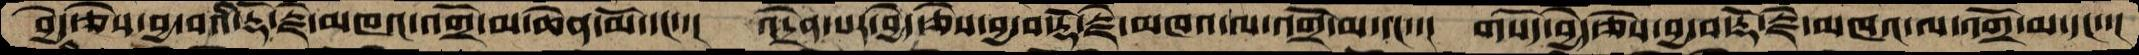བྱེད་ཅེས་བྱ་བའི་རྡོ་རྗེ་མཁའ་འགྲོ་མ་ཆེན་མོ་དང་་།  འདྲེན་པར་བྱེད་ཅེས་བྱ་བ་རྡོ་རྗེ་མཁའ་ལ་འགྲོ་མ་དང་་།  གསོད་བྱེད་ཅེས་བྱ་བ་རྡོ་རྗེ་མཁའ་ལ་འགྲོ་མ་དང་་།
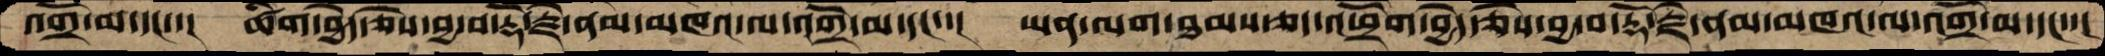འགྲོ་མ་དང་་།  ཚིག་བྱེད་ཅེས་བྱ་བ་རྡོ་རྗེ་ནམ་མཁའ་ལ་འགྲོ་མ་དང་་།  ཡན་ལག་ཐམས་ཅད་འཕྲོག་བྱེད་ཅེས་བྱ་བ་རྡོ་རྗེ་ནམ་མཁའ་ལ་འགྲོ་མ་དང་་།
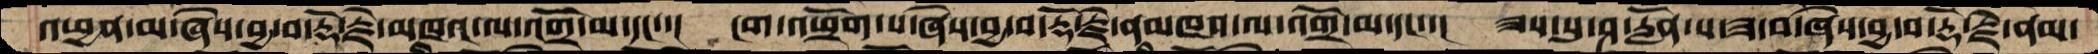འཕྱན་མ་ཞེས་བྱ་བ་རྡོ་རྗེ་མཁའ་ལ་འགྲོ་མ་དང་་།  ངག་འཕྲོག་པ་ཞེས་བྱ་བ་རྡོ་རྗེ་ནམཁའ་ལ་འགྲོ་མ་དང་་།  ཟས་སུ་ཤ་རློན་པ་ཟ་བ་ཞེས་བྱ་བ་རྡོ་རྗེ་ནམ་
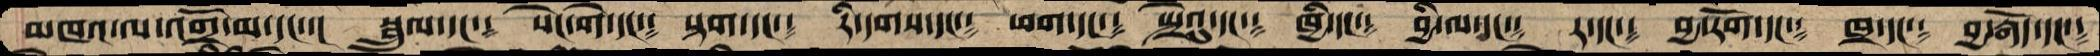མཁའ་ལ་འགྲོ་མ་སང་་།  སྦྲུལ་དང་༴  སེང་གེ་དང་༴  སྟག་དང་༴  རི་དགས་དང་༴  ཕག་དང་༴  སྤྲེའུ་དང་༴  ཁྱི་དང་༴  བྱི་ལ་དང་༴  ར་དང་༴  བྱ་རོག་དང་༴  ཁྲ་དང་༴ བྱ་རྒོད་དང་༴
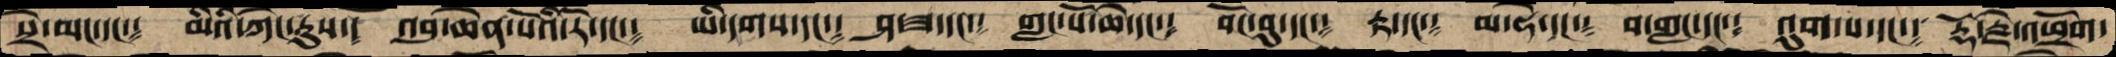སྲེ་མང་དང་༴  མིའི་ཀེང་རུས་།   འབུ་ཆེན་པོའི་རོ་དང་༴  ཡི་དགས་དང་༴  ཤ་ཟ་དང་༴  གླང་པོ་ཆེ་དང་༴  བོང་བུ་དང་༴  རྟ་དང་༴  མ་ཧེ་དང་༴  བ་གླང་དང་༴ འུག་པ་དང་༴  རྡོ་རྗེ་འཕྲོག་
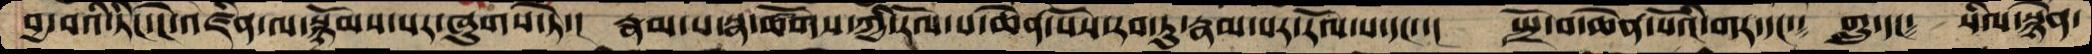བྱ་བའི་ཏིང་ངེ་འཛིན་ལ་སྙོམས་པར་ཞུགས་ཏེ་།  རྣམ་པ་སྣ་ཚོགས་ཀྱི་རོལ་པ་ཆེན་པོས་རབ་ཏུ་རྣམ་པར་རོལ་པ་དང་་།  སྤྲོ་བ་ཆེན་པོའི་གར་དང་༴ གླུ་དང་༴  སིལ་སྙེན་
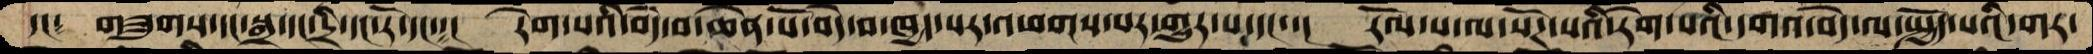དང༴  གཟུགས་དང་སྒྲ་དང་དྲི་དང་རོ་དང་༴།  རེག་པའི་བདེ་བ་ཆེན་པོ་བདེ་བ་ཁྱད་པར་འཕགས་པར་གྱུར་པ་དང་་།  རོལ་པ་ལ་སོཌ་པའི་རེག་པའི་དགའ་བདེ་ལ་སྤྱོད་པའི་གར་
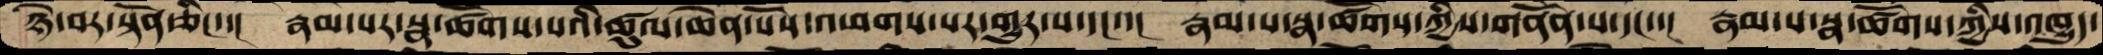ཉེ་བར་སྟོན་ཅིང་་།  རྣམ་པར་སྣ་ཚོགས་པའི་ཚུལ་ཆེན་པོས་འཕགས་པར་གྱུར་པ་དང་་།  རྣམ་པ་སྣ་ཚོགས་ཀྱིས་གནོན་པ་དང་་།  རྣམ་པ་སྣ་ཚོགས་ཀྱིས་འཁྱུད་
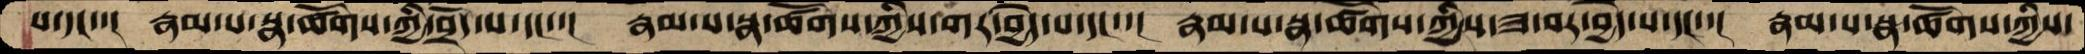པ་དང་་།  རྣམ་པ་སྣ་ཚོགས་ཀྱི་བྲོད་པ་དང་་།  རྣམ་པ་སྣ་ཚོགས་ཀྱིས་གར་བྱེད་པ་དང་་།  རྣམ་པ་སྣ་ཚོགས་ཀྱིས་ཟ་བར་བྱེད་པ་དང་་།  རྣམ་པ་སྣ་ཚོགས་ཀྱིས་
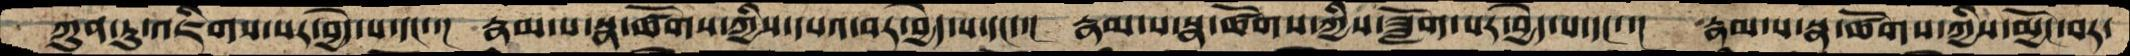ཀུན་ཏུ་འཇིགས་པར་བྱེད་པ་དང་་།  རྣམ་པ་སྣ་ཚོགས་ཀྱིས་དཔའ་བར་བྱེད་པ་དང་་།  རྣམ་པ་སྣ་ཚོགས་ཀྱིས་ཟློག་པར་བྱེད་པ་དང་་།  རྣམ་པ་སྣ་ཚོགས་ཀྱིས་མྱོང་བར་
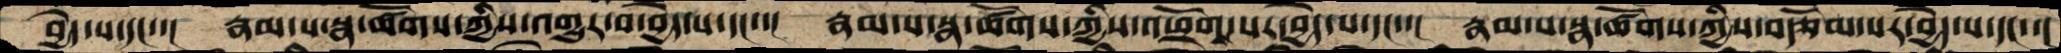བྱེེད་པ་དང་་།  རྣམ་པ་སྣ་ཚོགས་ཀྱིས་འགྱུར་བ་བྱེད་པ་དང་་།  རྣམ་པ་སྣ་ཚོགས་ཀྱིས་འཕྲོག་པར་བྱེད་པ་དང་་།  རྣམ་པ་སྣ་ཚོགས་ཀྱིས་བརྩོམ་པར་བྱེད་པ་དང་་།
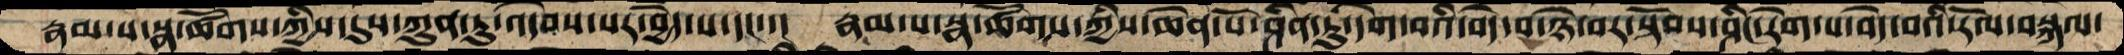རྣམ་པ་སྣ་ཚོགས་ཀྱིས་དུས་ཀུན་ཏུ་འདེབས་པར་བྱེད་པ་དང་་།  རྣམ་པ་སྣ་ཚོགས་ཀྱིས་ཆེན་པོ་ཤིན་ཏུ་དགེ་བའི་བདེ་བ་ཉེ་བར་སྟོབས་ཤིང་རེག་པ་བདེ་བའི་རོལ་བསྐལ་
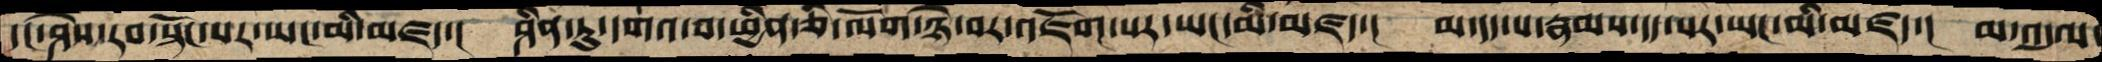དང་ཤེས་རབ་སྟོང་པར་ཡང་མི་མཛད་།  ཤིན་ཏུ་དགའ་བ་ཕྱིན་ཅི་ལོག་ཉེ་བར་འཇོག་པར་ཡང་མི་མཛད་།  མ་དད་པ་རྣམས་དད་པར་ཡང་མི་མཛད་།  མ་འདུལ
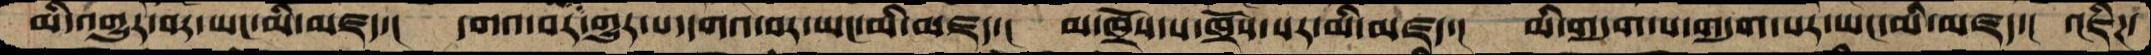མི་འགྱུར་བར་ཡང་མི་མཛད་།  དགའ་བར་གྱུར་པ་དགའ་བར་ཡང་མི་མཛད་།  མ་ཁྲོས་པ་ཁྲོས་པར་མི་མཛད་།  མི་གདུག་པ་གདུག་པར་ཡང་མི་མཛད་།  འཇིཌ་
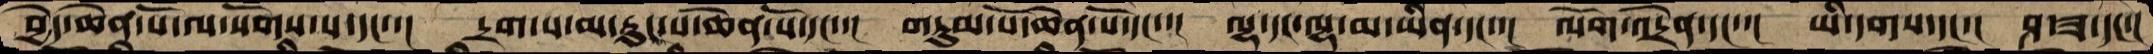བྱེད་ཆེན་པོ་ལ་སོགས་པ་དང་་།  དྲག་པ་མ་རུང་པ་ཆེན་པོ་དང་།  གཏུམ་པོ་ཆེན་པོ་དང་་།  ལྷ་དང་ལྷ་མ་ཡིན་དང་་།  ལོག་འདྲེན་དང་་།  ཡི་དགས་དང་་།  ཤ་ཟ་དང་་།
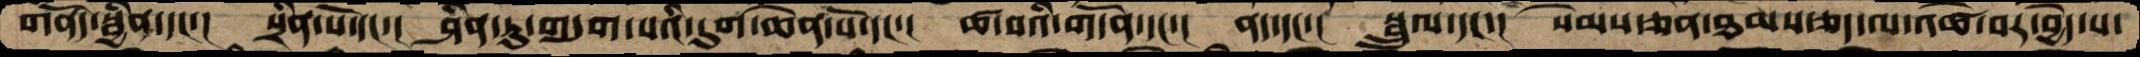གནོད་སྦྱིན་དང་་།  སྲིན་པོ་དང་་།  ཤིན་ཏུ་གདུག་པའི་དུག་ཆེན་པོ་དང་་།  ཚ་བའི་གདོན་དང་་།  ནད་དང་།  སྦྲུལ་དང་་།  སེམས་ཅན་ཐམས་ཅད་ལ་འཚེ་བར་བྱེད་པ་
